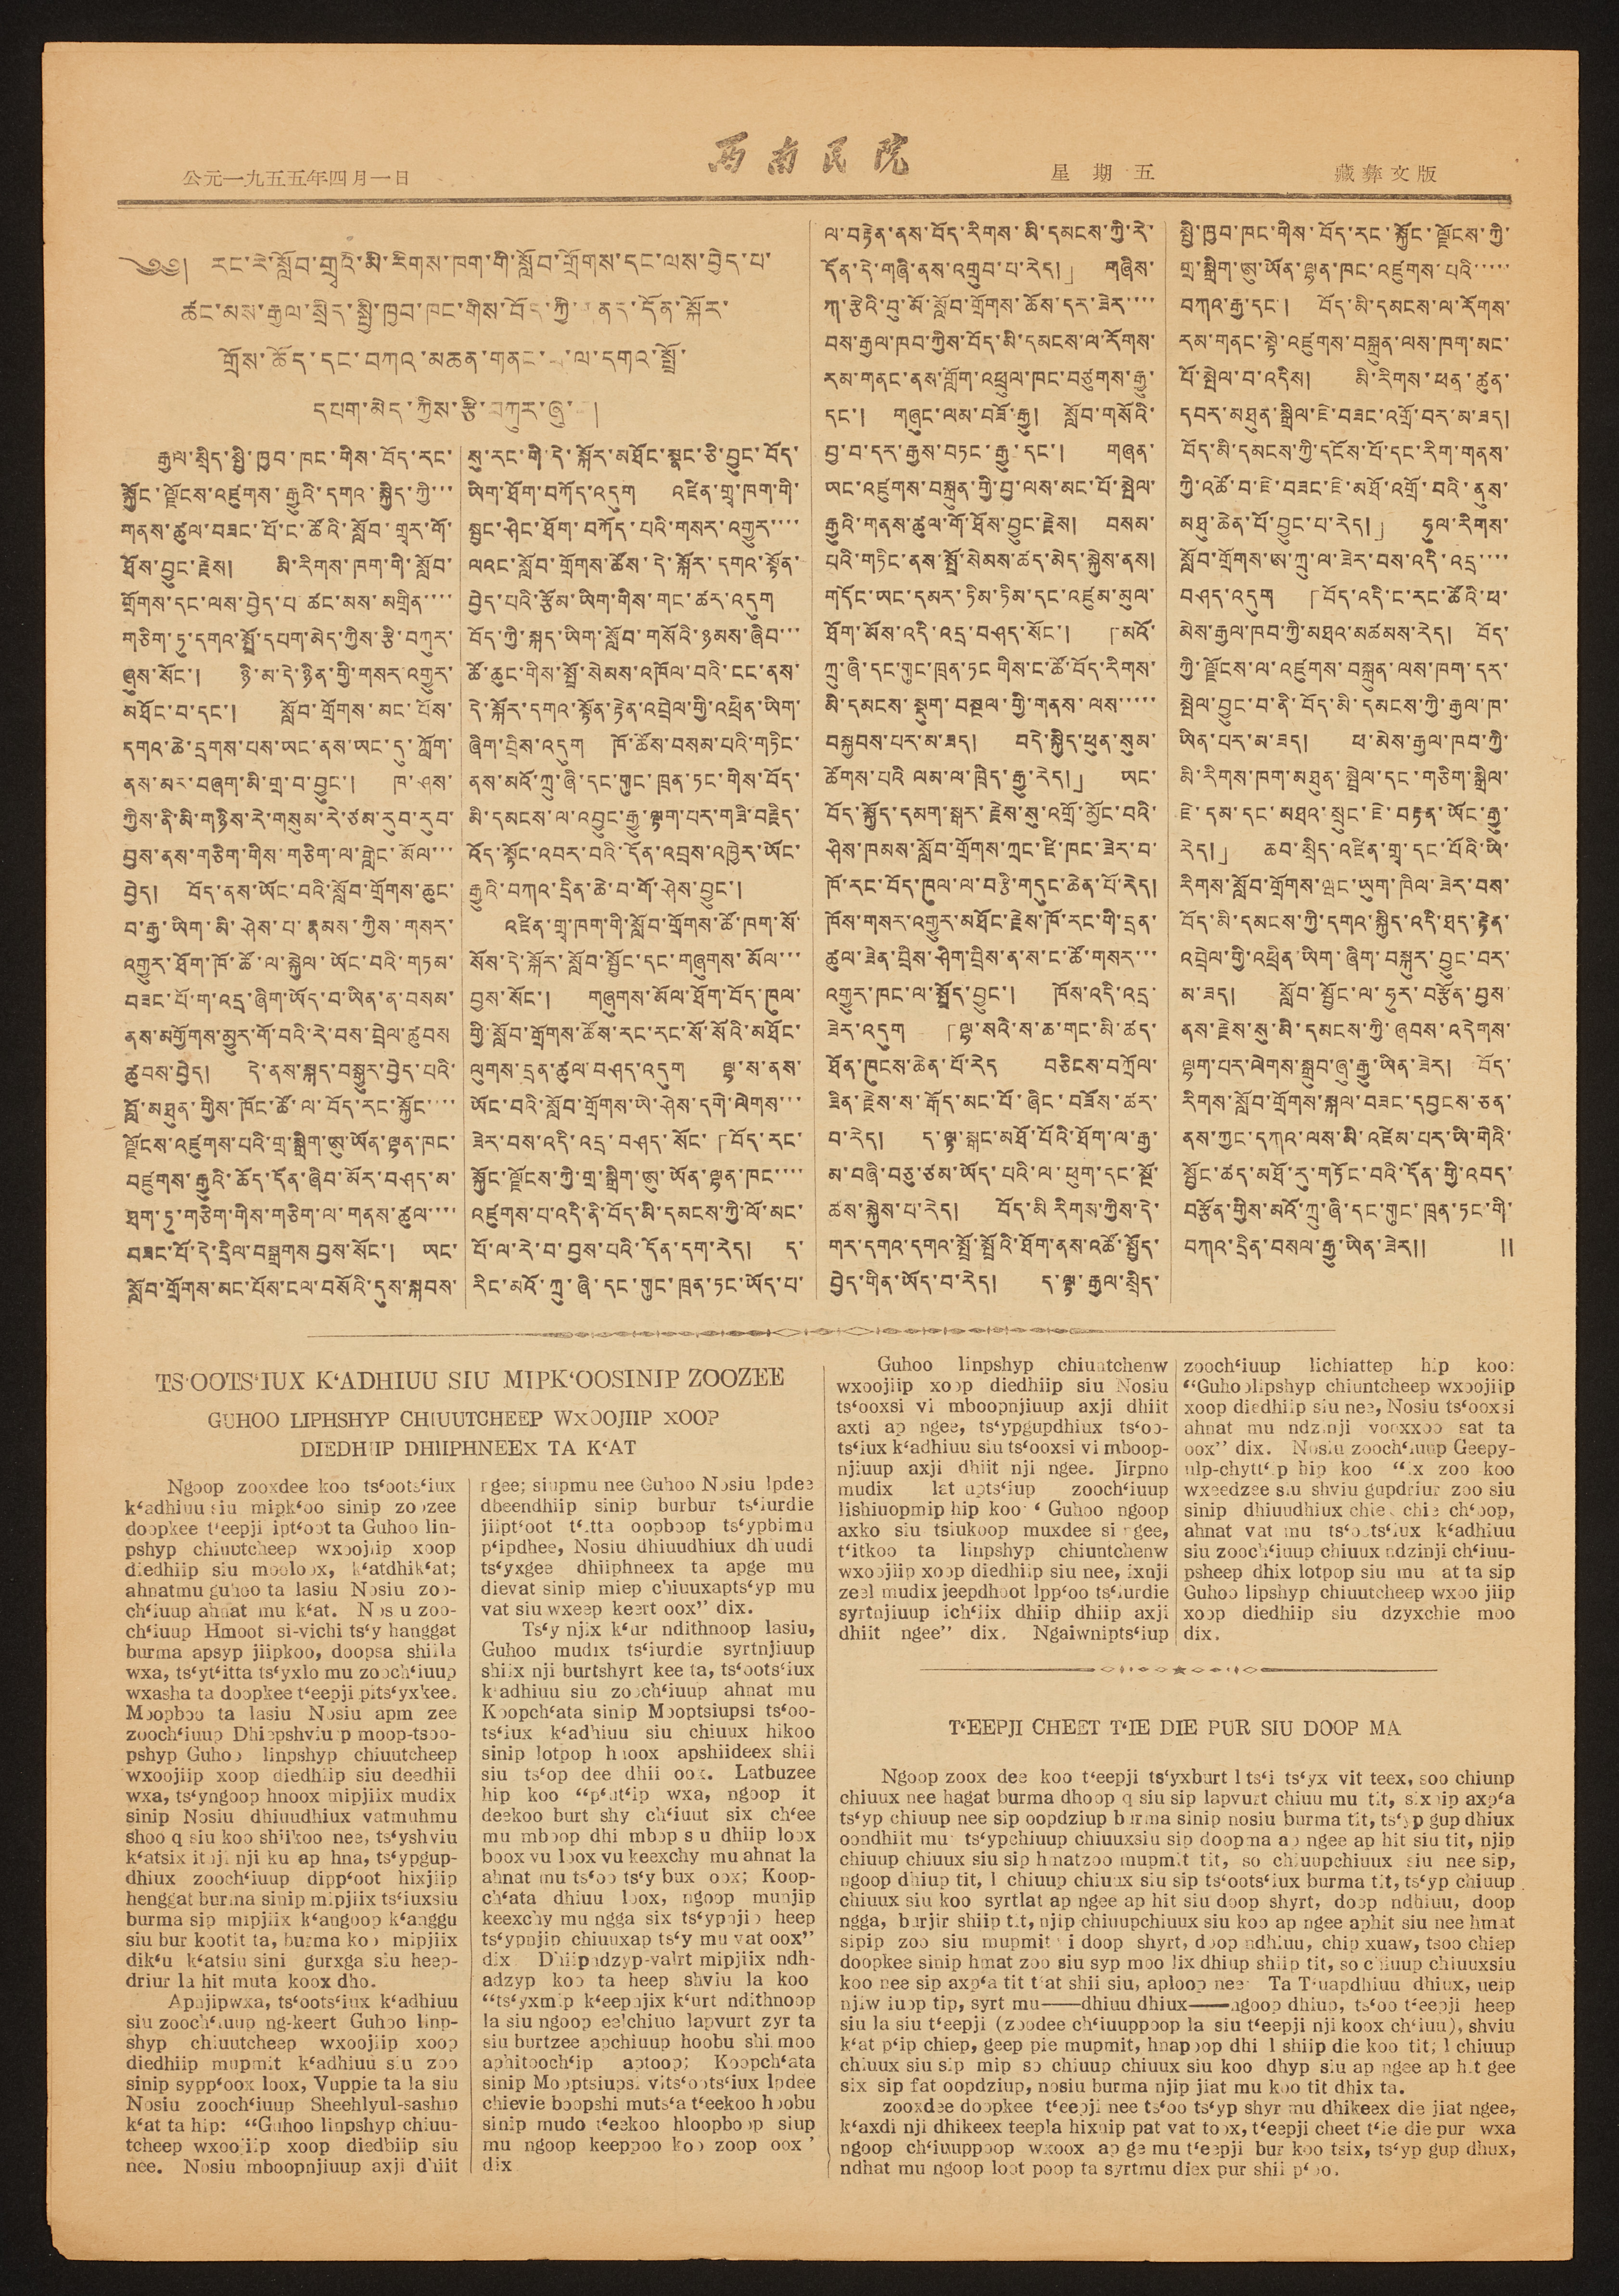公元一九五五年四月一日 西南民院 星期五 藏彝文版
༄༅། རང་རེ་སློབ་གྲྭའི་མི་རིགས་ཁག་གི་སློབ་གྲོགས་དང་ལས་བྱེད་པ་
ཚང་མས་རྒྱལ་སྲིད་སྤྱི་ཁྱབ་ཁང་གིས་བོད་ཀྱི་གནད་དོན་སྐོར་
གྲོས་ཆོད་དང་བཀའ་མཆན་གནང་པ་ལ་དགའ་སྤྲོ་
དཔག་མེད་ཀྱིས་རྩི་བཀུར་ཞུ་བ།
རྒྱལ་སྲིད་སྤྱི་ཁྱབ་ཁང་གིས་བོད་རང་
སྐྱོང་ལྗོངས་འཛུགས་རྒྱུའི་དགའ་སྐྱིད་ཀྱི་་་
གནས་ཚུལ་བཟང་པོ་ང་ཚོའི་སློབ་གྲྭར་གོ་
ཐོས་བྱུང་རྗེས། མི་རིགས་ཁག་གི་སློབ་
གྲོགས་དང་ལས་བྱེད་པ་ཚང་མས་མགྲིན་་་་
གཅིག་ཏུ་དགའ་སྤྲོ་དཔག་མེད་ཀྱིས་རྩི་བཀུར་
ཞུས་སོང་། ཉི་མ་དེ་ཉིན་གྱི་གསར་འགྱུར་
མཐོང་བ་དང་། སློབ་གྲོགས་མང་པོས་
དགའ་ཆེ་དྲགས་པས་ཡང་ནས་དུ་ཀློག་
ནས་མར་བཞག་མི་གྲ་བ་བྱུང་། ཁ་ཤས་
ཀྱིས་ནི་མི་གཉིས་རེ་གསུམ་རེ་ཙམ་རུབ་རུབ་
བྱས་ནས་གཅིག་གིས་གཅིག་ལ་གླེང་མོལ་་་
བྱེད། བོད་ནས་ཡོང་བའི་སློབ་གྲོགས་ཆུང་
བ་རྒྱ་ཡིག་མི་ཤེས་པ་རྣམས་ཀྱིས་གསར་
འགྱུར་ཐོག་ཁོ་ཚོ་ལ་སྐྱེལ་ཡོང་བའི་གཏམ་
བཟང་པོ་ག་འདྲ་ཞག་ཡོད་བ་ཡིན་ན་བསམ་
ནས་མགྱོགས་མྱུར་གོ་བའི་རེ་བས་བྲེལ་ཚུབས
ཚུབས་བྱེད། དེ་ནས་སྐད་བསྒྱུར་བྱེད་པའི་
བློ་མཐུན་གྱིས་ཁོང་ཚོ་ལ་བོད་རང་སྐྱོང་་་་
ལྗོངས་འཛུགས་པའི་གྲ་སྒྲིག་ཨུ་ཡོན་ལྷན་ཁང་
བཛུགས་རྒྱུའི་ཆོད་དོན་ཞིབ་མོར་བཤད་མ་
ཐག་ཏུ་གཅིག་གིས་གཅིག་ལ་གནས་ཚུལ་་་་
བཟང་པོ་དེ་དྲིལ་བསྒྲགས བྱས་སོང་། ཡང་
སློབ་གྲོགས་མང་པོས་ངལ་བསོའི་དུས་སྐབས་
སུ་རང་གི་དེ་སྐོར་མཐོང་སྣང་ཅི་བྱུང་བོད་
ཡིག་ཐོག་བཀོད་འདུག འཛིན་གྲྭ་ཁག་གི་
སྦྱང་ཤིང་ཐོག་བཀོད་པའི་གསར་འགྱུར་་་་
ལའང་སློབ་གྲོགས་ཚོས་དེ་སྐོར་དགའ་སྟོན་
བྱེད་པའི་རྩོམ་ཡིག་གིས་གང་ཚར་འདུག
བོད་ཀྱི་སྐད་ཡིག་སློབ་གསོའི་ཉམས་ཞིབ་་་
ཚོ་ཆུང་གིས་སྤྲོ་སེམས་འཁོལ་བའི་ངང་ནས་
དེ་སྐོར་དགའ་སྟོན་རྟེན་འབྲེལ་གྱི་འཕྲིན་ཡིག་
ཞིག་བྲིས་འདུག ཁོ་ཚོས་བསམ་པའི་གཏིང་
ནས་མའོ་ཀྲུ་ཞི་དང་གུང་ཁྲན་ཏང་གིས་བོད་
མི་དམངས་ལ་འབྱུང་རྒྱུ་ལྟག་པར་གཟི་བརྗིད་
འོད་སྟོང་འབར་བའི་དོན་འབྲས་འཁྱེར་ཡོང་
རྒྱུའི་བཀའ་དྲིན་ཆེ་བ་གོ་ཤེས་བྱུང་།
འཛིན་གྲྭ་ཁག་གི་སློབ་གྲོགས་ཚོ་ཁག་སོ་
སོས་དེ་སྐོར་སློབ་སྦྱོང་དང་གཞུགས་མོལ་་་
བྱས་སོང་། གཞུགས་མོལ་ཐོག་བོད་ཁུལ་
གྱི་སློབ་གྲོགས་སྟཧོས་རང་རང་སོ་སོའི་མཐོང་
ལུགས་དྲན་ཚུལ་བཤད་འདུག ལྷ་ས་ནས་
ཡོང་བའི་སློབ་གྲོགས་ཡེ་ཤེས་དགེ་ལེགས་་་
ཟེར་བས་འདི་འདྲ་བཤད་སོང་「བོད་རང་
སྐྱོང་ལྗོངས་ཀྱི་གྲ་སྒྲིག་ཨུ་ཡོན་ལྷན་ཁང་་་་
འཛུགས་པ་འདི་ནི་བོད་མི་དམངས་ཀྱི་ལོ་མང་
པོ་ལ་རེ་བ་བྱས་པའི་དོན་དག་རེད། ད་
རིང་མའོ་ཀྲུ་ཞི་དང་གུང་ཁྲན་ཏང་ཡོད་པ་
ལ་བརྟེན་ནས་བོད་རིགས་མི་དམངས་ཀྱི་རེ་
དོན་དེ་གཞི་ནས་འགྲུབ་པ་རེད།」 གཞིས་
ཀ་རྩེའི་བུ་མོ་སློབ་གྲོགས་ཆོས་དར་ཟེར་་་་
བས་རྒྱལ་ཁབ་ཀྱིས་བོད་མི་དམངས་ལ་རོགས་
རམ་གནང་ནས་གློག་འཕྲུལ་ཁང་བཙུགས་རྒྱུ་
དང་། གཞུང་ལམ་བཟོ་རྒྱུ། སློབ་གསོའི་
བྱ་བ་དར་རྒྱས་བཏང་རྒྱུ་དང་། གཞན་
ཡང་འཛུགས་བསྐྲུན་གྱི་བྱ་ལས་མང་པོ་སྤེལ་
རྒྱུའི་གནས་ཚུལ་གོ་ཐོས་བྱུང་རྗེས། བསམ་
པའི་གཏིང་ནས་སྤྲོ་སེམས་ཚད་མེད་སྐྱེས་ནས།
གདོང་ཡང་དམར་ཏིམ་ཏིམ་དང་འཛུམ་མུལ་
ཐོག་མོས་འདི་འདྲ་བཤད་སོང་། 「མའོ་
ཀྲུ་ཞི་དང་གུང་ཁྲན་ཏང གིས་ང་ཚོ་བོད་རིགས་
མི་དམངས་སྡུག་བསྔལ་གྱི་གནས་ལས་་་་་
བསྐྱབས་པར་མ་ཟད། བདེ་སྐྱིད་ཕུན་སུམ་
ཚོགས་པའི ལམ་ལ་ཁྲིད་རྒྱུ་རེད།」 ཡང་
བོད་སྐྱོད་དམག་སྒར་རྗེས་སུ་འགྲོ་མྱོང་བའི་
ཤིས་ཁམས་སློབ་གྲོགས་ཀྲང་ཛི་ཁང་ཟེར་བ་
ཁོ་རང་བོད་ཁུལ་ལ་བརྩི་གདུང་ཆེན་པོ་རེད།
ཁོས་གསར་འགྱུར་མཐོང་རྗེས་ཁོ་རང་གི་དྲན་
ཚུལ་ཟིན་བྲིས་ཤིས་བྲིས་ན་ས་ང་ཚོ་གསར་་་
འགྱུར་ཁང་ལ་སྤྲོད་བྱུང་། ཁོས་འདི་འདྲ་
ཟེར་འདུག 「ལྷ་སའི་ས་ཆ་གང་མི་ཚད་
ཐོན་ཁུངས་ཆེན་པོ་རེད བཅིངས་བཀྲོལ་
ཟིན་རྗེས་ས་རྒོད་མང་པོ་ཞིང་བཟོས་ཚར་
བ་རེད། ད་ལྟ་སྒང་མཐོ་པོའི་ཐོག་ལ་རྒྱ་
མ་བཞི་བཅུ་ཙམ་ཡོད་པའི་ལ་ཕུག་དང་སྔོ་
ཚས་སྐྱེས་པ་རེད། བོད་མི རིགས་ཀྱིས་དེ་
གར་དགའ་དགའ་སྤྲོ་སྤྲོའི་ཐོག་ནས་འཚོ་སྤྱོད་
བྱེད་གིན་ཡོད་བ་རེད། ད་ལྟ་རྒྱལ་སྲིད་
སྤྱི་ཁྱབ་ཁང་གིས་བོད་རང་སྐྱོང་ལྗོངས་ཀྱི་
གྲ་སྒྲིག་ཨུ་ཡོན་ལྷན་ཁང་འཛུགས་པའི་་་་་
བཀའ་རྒྱ་དང་། བོད་མི་དམངས་ལ་རོགས་
རམ་གནང་སྟེ་འཛུགས་བསྐྲུན་ལས་ཁག་མང་
པོ་སྤེལ་བ་འདིས། མི་རིགས་ཕན་ཚུན་
དབར་མཐུན་སྒྲིལ་ཇེ་བཟང་འགྲོ་བར་མ་ཟད།
བོད་མི་དམངས་ཀྱི་དངོས་པོ་དང་རིག་གནས་
ཀྱི་འཚོ་བ་ཇེ་བཟང་ཇེ་མཐོ་འགྲོ་བའི་ནུས་
མཐུ་ཆེན་པོ་བྱུང་པ་རེད།」 ཧུལ་རིགས་
སློབ་གྲོགས་ཨ་ཀྲུ་ལ་ཟེར་བས་འདི་འདྲ་་་་
བཤད་འདུག 「བོད་འདི་ང་རང་ཚོའི་ཕ་
མེས་རྒྱལ་ཁབ་ཀྱི་མཐའ་མཚམས་རེད། བོད་
ཀྱི་ལྗོངས་ལ་འཛུགས་བསྐྲུན་ལས་ཁག་དར་
སྤེལ་བྱུང་བ་ནི་བོད་མི་དམངས་ཀྱི་རྒྱལ་ཁ་
ཡིན་པར་མ་ཟད། ཕ་མེས་རྒྱལ་ཁབ་ཀྱི་
མི་རིགས་ཁག་མཐུན་སྤྲེལ་དང་གཅིག་སྒྲིལ་
ཇེ་དམ་དང་མཐའ་སྲུང་ཇེ་བརྟན་ཡོང་རྒྱུ་
རེད།」 ཆབ་སྲིད་འཛིན་གྲྭ་དང་པོའི་ཡི་
རིགས་སློབ་གྲོགས་ཝང་ཡུག་ཁིལ་ཟེར་བས་
བོད་མི་དམངས་ཀྱི་དགའ་སྐྱིད་འདི་ཐད་རྟེན་
འབྲེལ་གྱི་འཕྲིན་ཡིག་ཞིག་བསྐུར་བྱུང་བར་
མ་ཟད། སློབ་སྦྱོང་ལ་ཧུར་བརྩོན་བྱས་
ནས་རྗེས་སུ་མི་དམངས་ཀྱི་ཞབས་འདེགས་
ལྷག་པར་ལེགས་སྒྲུབ་ཞུ་རྒྱུ་ཡིན་ཟེར། བོད་
རིགས་སློབ་གྲོགས་སྐལ་བཟང་དབྱངས་ཅན་
ནས་ཀྱང་དཀའ་ལས་མི་འཛེམ་པར་ཡི་གེའི་
སྦྱོང་ཚད་མཐོ་རུ་གཏོང་བའི་དོན་གྱི་འབད་
བརྩོན་གྱིས་མའོ་ཀྲུ་ཞི་དང་གུང་ཁྲན་ཏང་གི་
བཀའ་དྲིན་བསལ་རྒྱུ་ཡིན་ཟེར༎ ༎
TS'OOTS'IUX K'ADHIUU SIU MIPK'OOSINIP ZOOZEE
GUHOO LIPHSHYP CHIUUTCHEEP WXOOJIIP XOOP
DIEDHIIP DHIIPHNEEX TA K'AT
Ngoop zooxdee koo ts'oots'iux
k'adhiuu siu mipk'oo sinip zoozee
doopkee t'eepji ipt'oot ta Guhoo lin-
pshyp chiuptcheep wxoojiip xoop
diedhiip siu mooloox, k'atdhik'at;
ahnatmu guhoo ta lasiu Nosiu zoo-
ch'iuup ahnat mu k'at. Nos u zoo-
ch'iuup Hmoot si-vichi ts'y hanggat
burma apsyp jiipkoo, doopsa shiila
wxa, ts'yt'itta ts'yxlo mu zooch'iuup
wxasha ta doopkee t'eepji pits'yxkee.
Moopboo ta lasiu Nosiu apm zee
zooch'iuup Dhiepshviu p moop-tsoo-
pshyp Guhoo linpshyp chiuutcheep
wxoojiip xoop diedhiip siu deedhii
wxa, ts'yngoop hnoox mipjiix mudix
sinip Nosiu dhiuudhiux vatmuhmu
shoo q siu koo shiikoo nee, ts'yshviu
k'atsix itoji nji ku ap hna, ts'ypgup-
dhiux zooch'iuup dipp'oot hixjiip
henggat burma sinip mipjiix ts'iuxsiu
burma sip mipjiix k'angoop k'anggu
siu bur kootit ta, burma koo mipjiix
dik'u k'atsiu sini gurxga siu heep-
driur la hit muta koox dho.
Apojipwxa, ts'oots'iux k'adhiuu
aiu zooch'iuup ng-keert Guhoo linp-
shyp chiuutcheep wxoojiip xoop
diedhiip mupmit k'adhiuu siu zoo
sinip sypp'oox loox, Vuppie ta la siu
Nosiu zooch'iuup Sheehlyul-saship
k'at ta hip: "Guhoo linpshyp chiuu-
tcheep wxoojiip xoop diedbiip siu
nee. Nosiu mboopnjiuup axji dhiit
ngee; siupmu nee Guhoo Nosiu lpdee
dbeendhiip sinip burbur ts'iurdie
jiipt'oot t' tta oopboop ts'ypbimu
p'ipdhee, Nosiu dhiuudhiux dhiuudi
ts'yxgee dhiiphneex ta apge mu
dievat sinip miep chiuuxapts'yp mu
vat siu wxeep keert oox" dix.
Ts'y njix k'ur ndithnoop lasiu,
Guhoo mudix ts'iurdie syrtnjiuup
shiix nji burtshyrt kee ta, ts'oots'iux
k'adhiuu siu zooch'iuup ahnat mu
Koopch'ata sinip Mooptsiupsi ts'oo-
ts'iux k'adhiuu siu chiuux hikoo
sinip lotpop h oox apshiideex shii
siu ts'op dee dhii oox. Latbuzee
hip koo "p'ut'ip wxa, ngoop it
deekoo burt shy ch'iuut six ch'ee
mu mboop dhi mbop s u dhiip loox
boox vu loox vu keexchy mu ahnat la
ahnat mu ts'oo ts'y bux oox; Koop-
ch'ata dhiuu loox, ngoop munjip
keexchy mu ngga six ts'ypnjip heep
ts'ypnjip chiuuxap ts'y mu vat oox"
dix. Dhiipndzyp-valrt mipjiix ndh-
adzyp koo ta heep shviu la koo
"ts'yxmip k'eepnjix k'urt ndithnoop
la siu ngoop eelchiuo lapvurt zyr ta
siu burtzee apchiuup hoobu shi moo
aphitooch'ip aptoop; Koopch'ata
sinip Mooptsiupsi vits'oots'iux lpdee
chievie boopshi muts'a t'eekoo hoobu
sinip mudo t'eekoo hloopboop siup
mu ngoop keeppoo koo zoop oox'
dix.
Guhoo linpshyp chiuutchenw
wxoojiip xop diedhiip diu Nosiu
ts'ooxsi vi mboopnjiuup axji dhiit
axti ap ngee, ts'ypgupdhiux ts'oo-
ts'iux k'adhiuu siu ts'ooxsi vi mboop-
njiuup axji dhiit nji ngee. Jirpno
mudix lat upts'iup zooch'iuup
lishiuopmip hip koo ' Guhoo ngoop
axko siu tsiukoop muxdee si ngee,
t'itkoo ta linpshyp chiuntchenw
wxoojiip xoop diedhiip siu nee, ixnji
zeel mudix jeepdhoot lpp'oo ts'iurdie
syrtnjiuup ich'iix dhiip dhiip axji
dhiit ngee" dix. Ngaiwnipts'iup
zooch'iuup lichiattep hip koo:
"Guhoolipshyp chiuntcheep wxoojiip
xoop diedhiip siu nee, Nosiu ts'ooxsi
ahnat mu ndzinji vooxxoo sat ta
oox" dix. Nosiu zooch'iuup Geepy-
nlp-chytt'ip hip koo "ix zoo koo
wxeedzee siu shviu gupdriur zoo siu
sinip dhiuudhiux chie chie ch'oop,
ahnat vat mu ts'oots'iux k'adhiuu
siu zooch'iuup chiuux ndzinji ch'iuu-
psheep dhix lotpop siu mu at ta sip
Guhoo lipshyp chiuutcheep wxoo jiip
xoop diedhiip siu dzyxchie moo
dix.
T'EEPJI CHEET T'IE DIE PUR SIU DOOP MA
Ngoop zoox dee koo t'eepji ts'yxburt l ts'i ts'yx vit teex, soo chiunp
chiuux nee hagat burma dhoop q siu sip lapvurt chiuu mu tit, sixnip axp'a
ts'yp chiuup nee sip oopdziup burma sinip nosiu burma tit, ts'yp gup dhiux
oondhiit mu ts'ypchiuup chiuuxsiu sip doopma ap ngee ap hi siu tit, njip
chiuup chiuux siu sip hmatzoo mupmit tit, so chiuupchiuux siu nee sip,
ngoop dhiup tit, l chiuup chiuux siu sip ts'oots'iux burma tit, ts'yp chiuup
chiuux siu koo syrtlat ap ngee ap hit siu doop shyrt, doop dhiuu, doop
ngga, burjir shiip tit, njip chiuupchiuux siu koo ap ngee aphit siu nee hmat
sipip zoo siu mupmit i doop shyrt, doop ngdhiuu, chip xuaw, tsoo chiep
doopkee sinip hmat zoo siu syp moo lix dhiup shiip tit, so chiuup chiuuxsiu
koo nee sip axp'a tit tiat shii siu, aploop nee. Ta Tiuapdhiuu dhiux, ueip
njiw iuop tip, syrt mu——dhiuu dhiux——ngoop dhiup, ts'oo t'eepji heep
siu la siu t'eepji (zoodee ch'iuuppoop la siu t'eepji nji koox ch'iuu), shviu
k'at p'ip chiep, geep pie mupmit, hnapoop dhi l shiip die koo tit; 1 chiuup
chiuux siu sip mip so chiuup chiuux siu koo dhyp siu ap ngee ap hit gee
six sip fat oopdziup, nosiu burma njip jiat mu koo tit dhix ta.
zooxdee doopkee t'eepji neee ts'oo ts'yp shyr mu dhikeex die jiat ngee,
k'axdi nji dhikeex teepla hixnip pat vat toox, t'eepji cheet t'ie die pur wxa
ngoop ch'iuuppoop wxoox ap ge mu t'eepji bur koo tsix, ts'yp gup dhux,
ndhat mu ngoop loot poop ta syrtmu diex pur shii p'oo.
